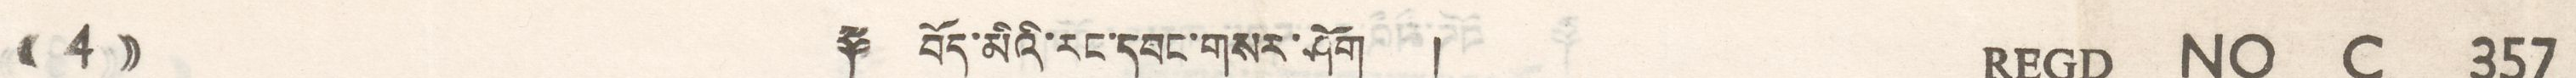(( 4 )) ༈ བོད་མིའི་རང་དབང་གསར་ཤོག ། REGD NO C. 357
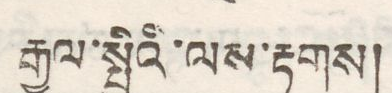རྒྱལ་སྤྱིའི་ལས་རྟགས།
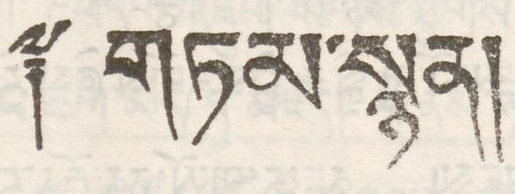༈ གཏམ་སྙན།
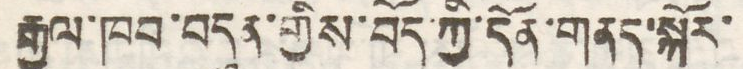རྒྱལ་ཁབ་བདུན་གྱིས་བོད་ཀྱི་དོན་གནད་སྐོར་
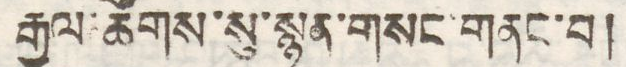རྒྱལ་ཚོགས་སུ་སྙན་གསང་གནང་བ།
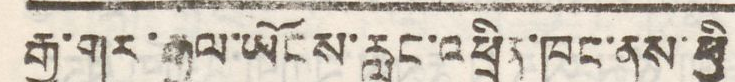རྒྱ་གར་རྒྱལ་ཡོངས་རླུང་འཕྲིན་ཁང་ནས་ཕྱི
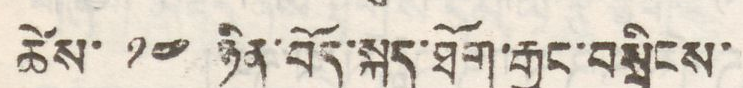ཚེས་ ༡༤ ཉིན་བོད་སྐད་ཐོག་རྒྱང་བསྲིངས་
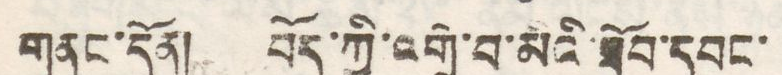གནང་དོན། བོད་ཀྱི་འགྲོ་བ་མིའི་ཐོབ་དབང་
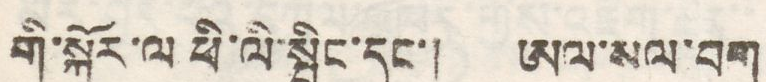གོ་སྐོར་ལ ཕི་ལི་སྤིང་དང་། ཨལ་སལ་བག
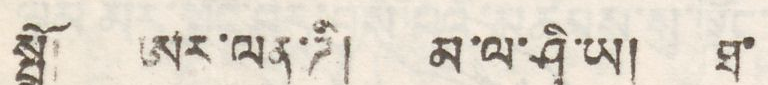སྤྲོ། ཨར་ལན་ཌི། མ་ལ་ཤི་ཡ། ཐ་
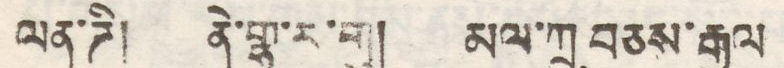ལན་ཌི། ནེ་གྷ་ར་གུ། མལ་ཀྲ་བཅས་རྒྱལ
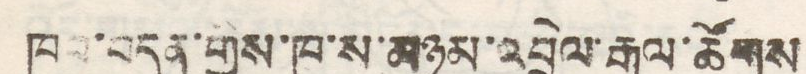ཁབ་བདུན་གྱིས་ཁ་ས་མཉམ་འབྲེལ་རྒྱལ་ཚོགས
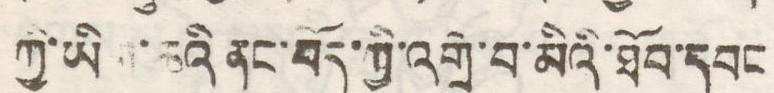ཀྱི་ཡིན་ཆའི་ནང་བོད་ཀྱི་འགྲོ་བ་མིའི་ཐོབ་དབང
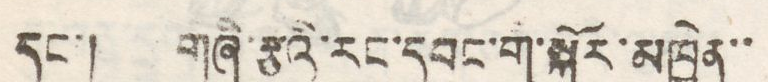དང་། གཞི་རྩའི་རང་དབང་གི་སྐོར་མཁྱེན་་
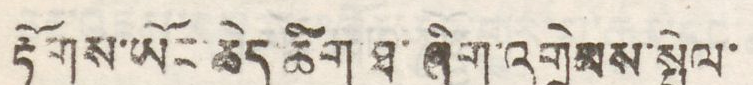རྟོགས་ཡོང་ཆེད་ཚིག་ཐ་ཞིག་འགྲེམས་སྤེལ་
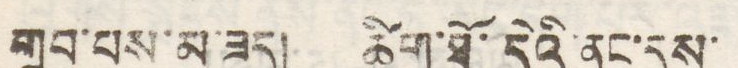གྲུབ་པས་མ་ཟད། ཚིག་ཐོ་དེའི་ནང་དུས་
